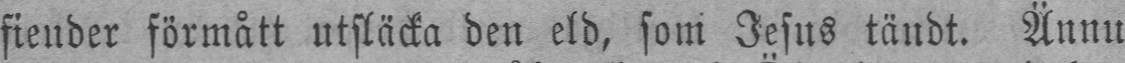fiender förmått utsläcka den eld, som Jesus tändt. Ännu
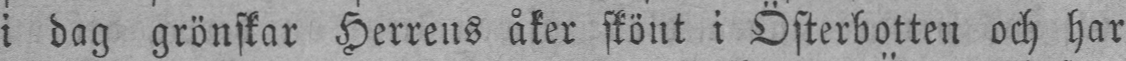i dag grönskar Herrens åker skönt i Österbotten och har
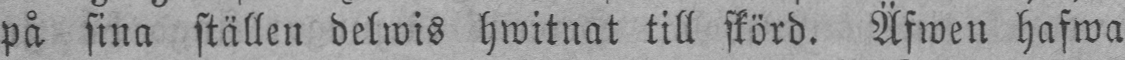på sina ställen delwis hwitnat till skörd. Äfwen hafwa
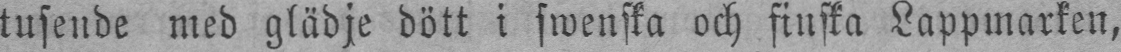tusende med glädje dött i swenska och finska Lappmarken,
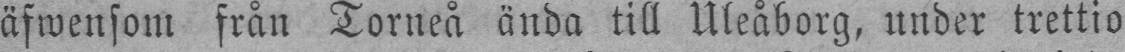äfwensom från Torneå ända till Uleåborg, under trettio
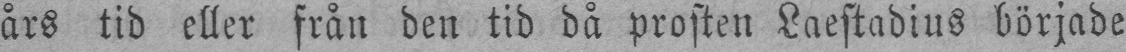års tid eller från den tid då prosten Laestadius började
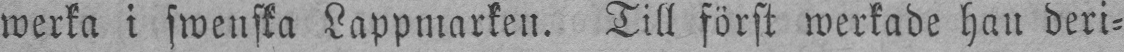werka i swenska Lappmarken. Till först werkade han deri-
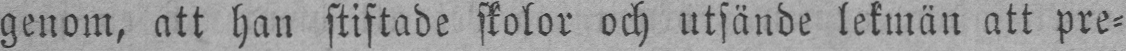genom, att han stiftade skolor och utsände lekmän att pre-
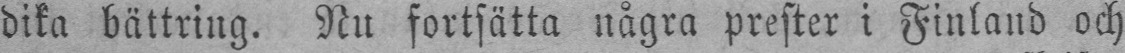dika bättring. Nu fortsätta några prester i Finland och
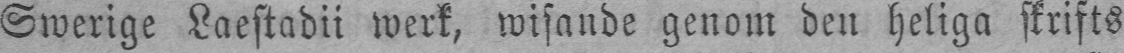Swerige Laestadii werk, wisande genom den heliga skrifts
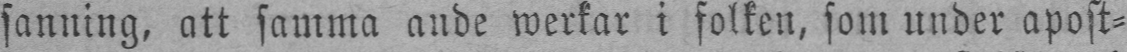sanning, att samma ande werkar i folken, som under apost-
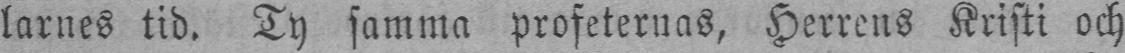larnes tid. Ty samma profeternas, Herrens Kristi och
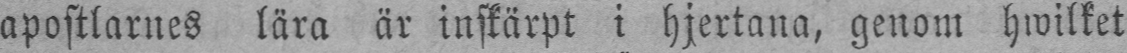apostlarnes lära är inskärpt i hjertana, genom hwilket
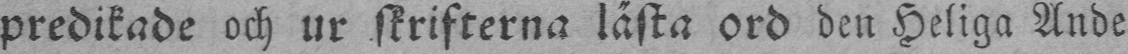predikade och ur skrifterna lästa ord den Heliga Ande
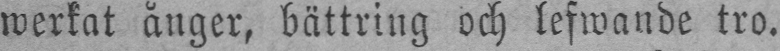werkat ånger, bättring och lefwande tro.
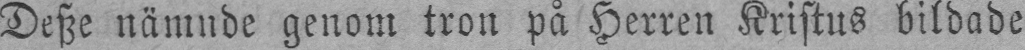Desze nämnde genom tron på Herren Kristus bildade
